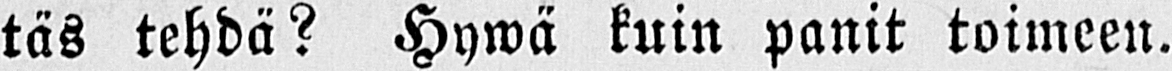täs tehdä? Hywä kuin panit toimeen.
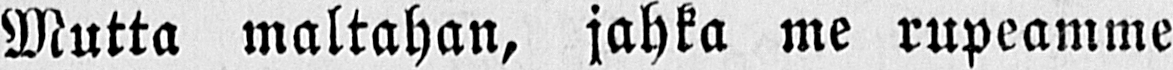Mutta maltahan, jahka me rupeamme
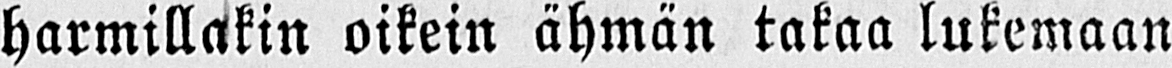harmillakin oikein ähmän takaa lukemaan
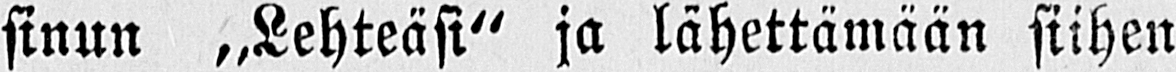sinun „Lehteäsi" ja lähettämään siihen
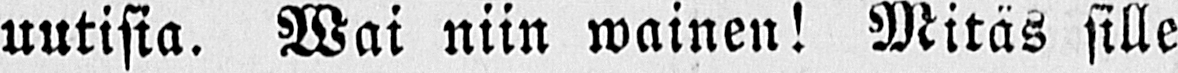uutisia. Wai niin wainen! Mitäs sille
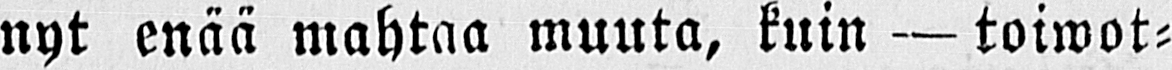nyt enää mahtaa muuta, kuin — toiwot-
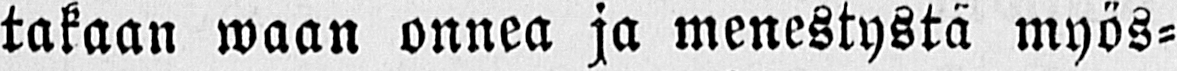takaan waan onnea ja menestystä myös-
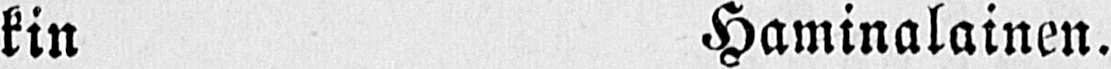kin Haminalainen.
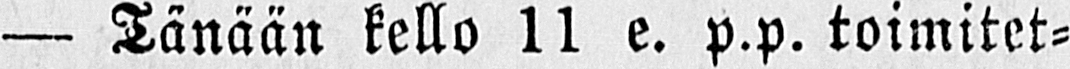— Tänään kello 11 e. p.p. toimitet-
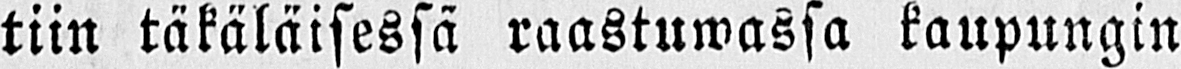tiin täkäläisessä raastuwassa kaupungin
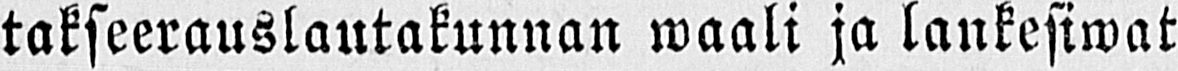takseerauslautakunnan waali ja lankesiwat
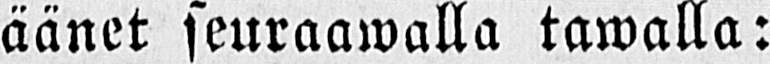äänet seuraawalla tawalla:
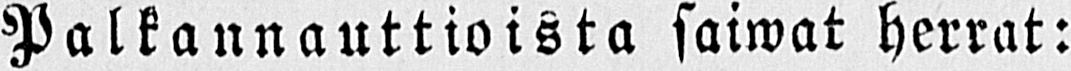Palkannauttioista saiwat herrat:
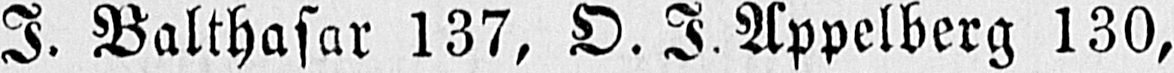I. Balthasar 137, O. I. Appelberg 130,
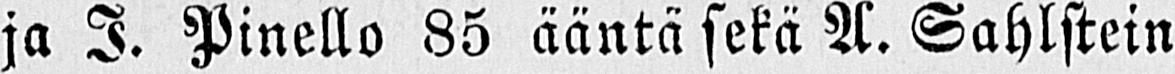ja I. Pinello 85 ääntä sekä A. Sahlstein
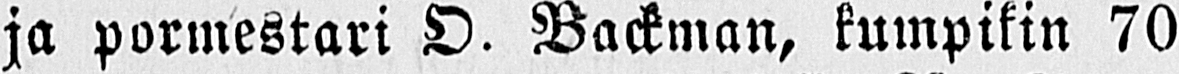ja pormestari O. Backman, kumpikin 70
